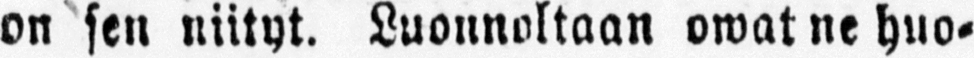on sen niityt. Luonnoltaan owat ne huo-
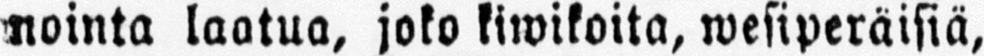mointa laatua, joko kiwikoita, wesiperäisiä,
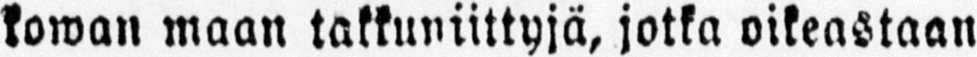kowan maan takkuniittyjä, jotka oikeastaan
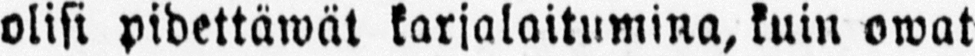olisi pidettäwät karjalaitumina, kuin owat
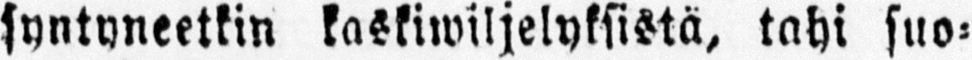syntyneetkin kaskiwiljelyksistä, tahi suo-
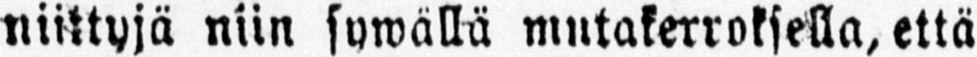niittyjä niin sywällä mutakerroksella, että
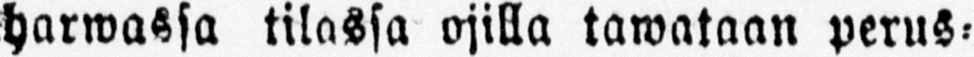harwansa tilassa ojilla tawataan perus-
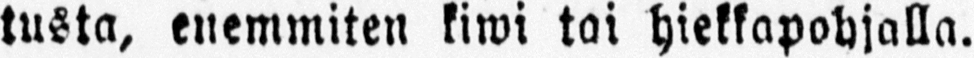tusta, enemmiten kiwi tai hiekkapohjalla.
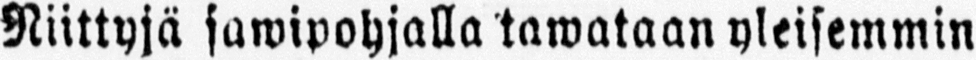Niittyjä sawipohjalla tawataan yleisemmin
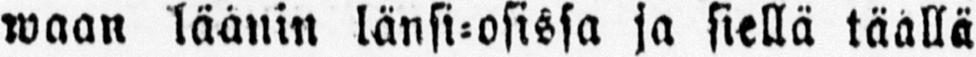waan läänin länsi-osissa ja siellä täällä
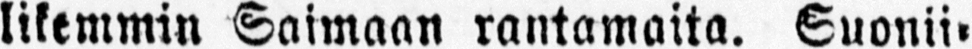likemmin Saimaan rantamaita. Suonii-
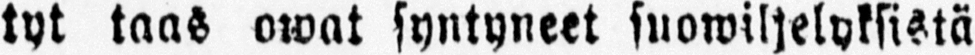tyt taas owat syntyneet suowiljelyksistä
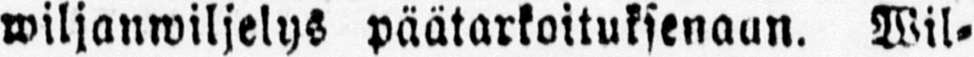wiljanwiljelys päätarkoituksenaan. Wil-
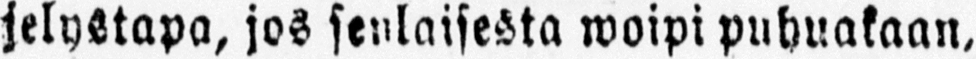jelystapa, jos senlaisesta woipi puhuakaan,
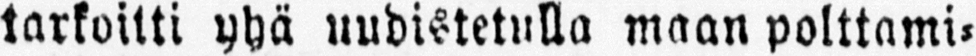tarkoitti yhä uudistetulla maan polttami-
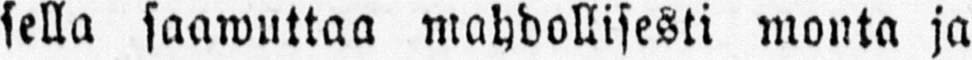sella saawuttaa mahdollisesti monta ja
